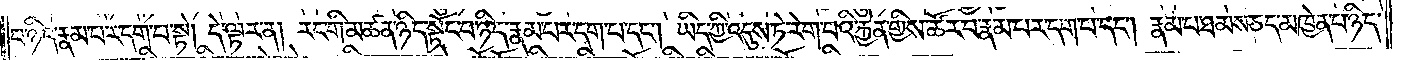པ་ཉིད་རྣམ་པར་དག་པ་སྟེ། དེ་ལྟར་ན། རང་གི་མཚན་ཉིད་སྟོང་པ་ཉིད་རྣམ་པར་དག་པ་དང༌། ཡིད་ཀྱི་འདུས་ཏེ་རེག་པའི་རྐྱེན་གྱིས་ཚོར་བ་རྣམ་པར་དག་པ་དང༌། རྣམ་པ་ཐམས་ཅད་མཁྱེན་པ་ཉིད་
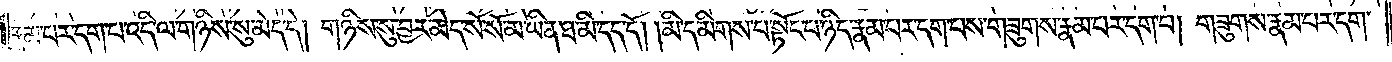རྣམ་པར་དག་པ་འདི་ལ་གཉིས་སུ་མེད་དེ། གཉིས་སུ་བྱར་མེད་སོ་སོ་མ་ཡིན་ཐ་མི་དད་དོ། །མི་དམིགས་པ་སྟོང་པ་ཉིད་རྣམ་པར་དག་པས་གཟུགས་རྣམ་པར་དག་པ། གཟུགས་རྣམ་པར་དག་
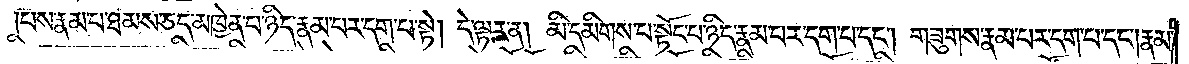པས་རྣམ་པ་ཐམས་ཅད་མཁྱེན་པ་ཉིད་རྣམ་པར་དག་པ་སྟེ། དེ་ལྟར་ན། མི་དམིགས་པ་སྟོང་པ་ཉིད་རྣམ་པར་དག་པ་དང༌། གཟུགས་རྣམ་པར་དག་པ་དང༌། རྣམ་
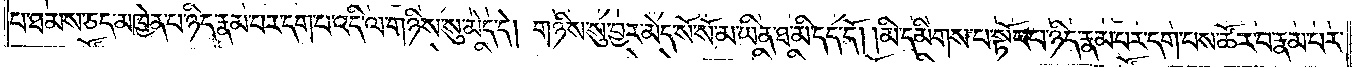པ་ཐམས་ཅད་མཁྱེན་པ་ཉིད་རྣམ་པར་དག་པ་འདི་ལ་གཉིས་སུ་མེད་དེ། གཉིས་སུ་བྱར་མེད་སོ་སོ་མ་ཡིན་ཐ་མི་དད་དོ། །མི་དམིགས་པ་སྟོང་པ་ཉིད་རྣམ་པར་དག་པས་ཚོར་བ་རྣམ་པར་
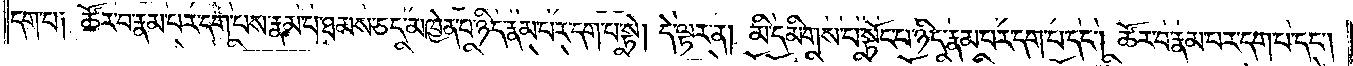དག་པ༑ ཚོར་བ་རྣམ་པར་དག་པས་རྣམ་པ་ཐམས་ཅད་མཁྱེན་པ་ཉིད་རྣམ་པར་དག་པ་སྟེ། དེ་ལྟར་ན། མི་དམིགས་པ་སྟོང་པ་ཉིད་རྣམ་པར་དག་པ་དང༌། ཚོར་བ་རྣམ་པར་དག་པ་དང༌།
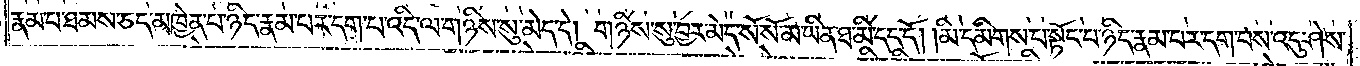རྣམ་པ་ཐམས་ཅད་མཁྱེན་པ་ཉིད་རྣམ་པར་དག་པ་འདི་ལ་གཉིས་སུ་མེད་དེ། གཉིས་སུ་བྱར་མེད་སོ་སོ་མ་ཡིན་ཐ་མི་དད་དོ། །མི་དམིགས་པ་སྟོང་པ་ཉིད་རྣམ་པར་དག་པས་འདུ་ཤེས་
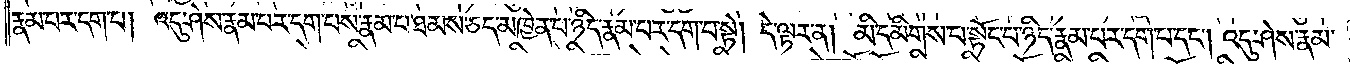རྣམ་པར་དག་པ། འདུ་ཤེས་རྣམ་པར་དག་པས་རྣམ་པ་ཐམས་ཅད་མཁྱེན་པ་ཉིད་རྣམ་པར་དག་པ་སྟེ། དེ་ལྟར་ན། མི་དམིགས་པ་སྟོང་པ་ཉིད་རྣམ་པར་དག་པ་དང༌། འདུ་ཤེས་རྣམ་
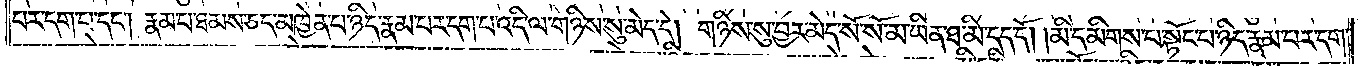པར་དག་པ་དང༌། རྣམ་པ་ཐམས་ཅད་མཁྱེན་པ་ཉིད་རྣམ་པར་དག་པ་འདི་ལ་གཉིས་སུ་མེད་དེ། གཉིས་བྱར་མེད་སོ་སོ་མ་ཡིན་ཐ་མི་དད་དོ། །མི་དམིགས་པ་སྟོང་པ་ཉིད་རྣམ་པར་དག་
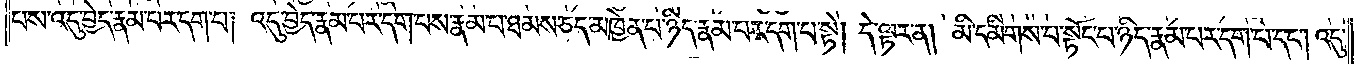པས་འདུ་བྱེད་རྣམ་པར་དག་པ། འདུ་བྱེད་རྣམ་པར་དག་པས་རྣམ་པ་ཐམས་ཅད་མཁྱེན་པ་ཉིད་རྣམ་པར་དག་པ་སྟེ། དེ་ལྟར་ན། མི་དམིགས་པ་སྟོང་པ་ཉིད་རྣམ་པར་དག་པ་དང༌། འདུ་
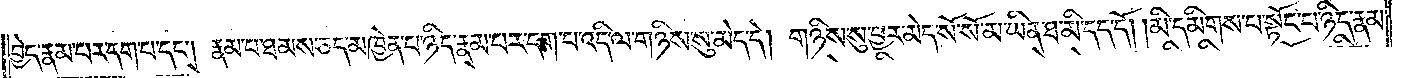བྱེད་རྣམ་པར་དག་པ་དང༌། རྣམ་པ་ཐམས་ཅད་མཁྱེན་པ་ཉིད་རྣམ་པར་དག་པ་འདི་ལ་གཉིས་སུ་མེད་དེ། གཉིས་སུ་བྱར་མེད་སོ་སོ་མ་ཡིན་ཐ་མི་དད་དོ། །མི་དམིགས་པ་སྟོང་པ་ཉིད་རྣམ་
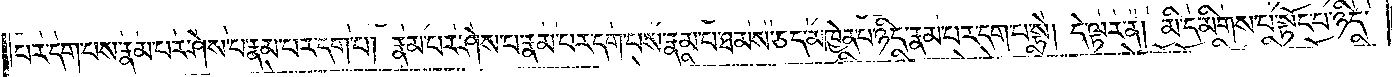པར་དག་པས་རྣམ་པར་ཤེས་པ་རྣམ་པར་དག་པ། རྣམ་པར་ཤེས་པ་རྣམ་པར་དག་པས་རྣམ་པ་ཐམས་ཅད་མཁྱེན་པ་ཉིད་རྣམ་པར་དག་པ་སྟེ། དེ་ལྟར་ན། མི་དམིགས་པ་སྟོང་པ་ཉིད་
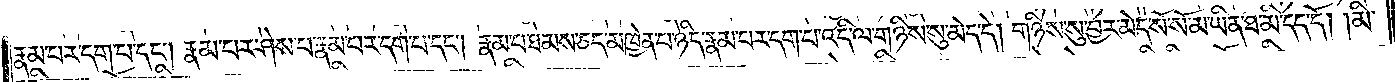རྣམ་པར་དག་པ་དང༌། རྣམ་པར་ཤེས་པ་རྣམ་པར་དག་པ་དང༌། རྣམ་པ་ཐམས་ཅད་མཁྱེན་པ་ཉིད་རྣམ་པར་དག་པ་འདི་ལ་གཉིས་སུ་མེད་དེ། གཉིས་སུ་བྱར་མེད་སོ་སོ་མ་ཡིན་ཐ་མི་དད་དོ། །མི་
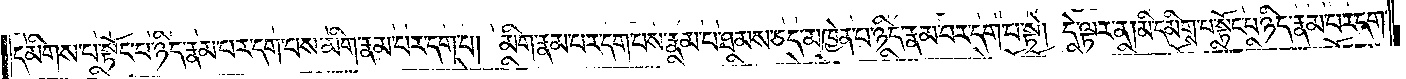དམིགས་པ་སྟོང་པ་ཉིད་རྣམ་པར་དག་པས་མིག་རྣམ་པར་དག་པ། མིག་རྣམ་པར་དག་པས་རྣམ་པ་ཐམས་ཅད་མཁྱེན་པ་ཉིད་རྣམ་པར་དག་པ་སྟེ། དེ་ལྟར་ན། མི་དམིགས་པ་སྟོང་པ་ཉིད་རྣམ་པར་དག་
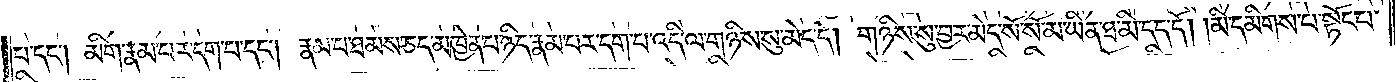པ་དང༌། མིག་རྣམ་པར་དག་པ་དང༌། རྣམ་པ་ཐམས་ཅད་མཁྱེན་པ་ཉིད་རྣམ་པར་དག་པ་འདི་ལ་གཉིས་སུ་མེད་དེ། གཉིས་སུ་བྱར་མེད་སོ་སོ་མ་ཡིན་ཐ་མི་དད་དོ། །མི་དམིགས་པ་སྟོང་པ་
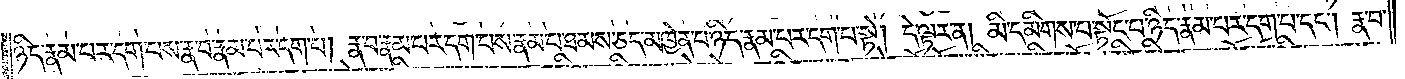ཉིད་རྣམ་པར་དག་པས་རྣ་བ་རྣམ་པར་དག་པ། རྣ་བ་རྣམ་པར་དག་པས་རྣམ་པ་ཐམས་ཅད་མཁྱེན་པ་ཉིད་རྣམ་པར་དག་པ་སྟེ། དེ་ལྟར་ན། མི་དམིགས་པ་སྟོང་པ་ཉིད་རྣམ་པར་དག་པ་དང༌། རྣ་བ་
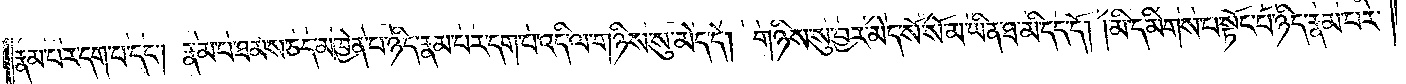རྣམ་པར་དག་པ་དང༌། རྣམ་པ་ཐམས་ཅད་མཁྱེན་པ་ཉིད་རྣམ་པར་དག་པ་འདི་ལ་གཉིས་སུ་མེད་དེ། གཉིས་སུ་བྱར་མེད་སོ་སོ་མ་ཡིན་ཐ་མི་དད་དོ། །མི་དམིགས་པ་སྟོང་པ་ཉིད་རྣམ་པར་
